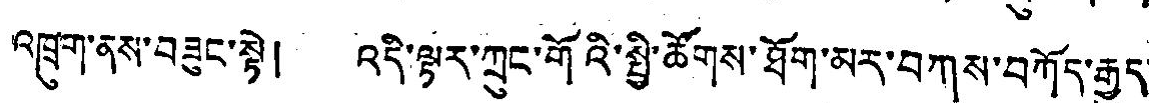འཁྲུག་ནས་བཟུང་སྟེ། འདི་ལྟར་ཀྲུང་གོའི་སྤྱི་ཚོགས་ཐོག་མར་བཀས་བཀོད་རྒྱུད་
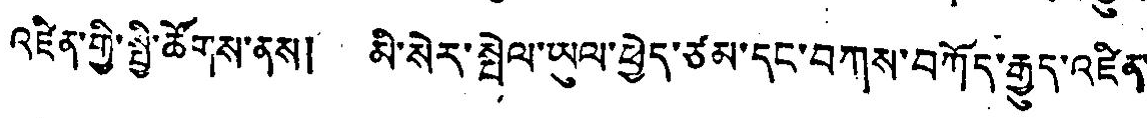འཛིན་གྱི་སྤྱི་ཚོགས་ནས། མི་སེར་སྤེལ་ཡུལ་ཕྱེད་ཙམ་དང་བཀས་བཀོད་རྒྱུད་འཛིན་
